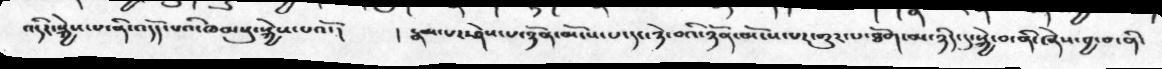འདིར་སྐྱེས་པ་ནི་འདོད་པའི་ཁམསུ་སྐྱེས་པའོ་།   །རྣམ་པར་ཤེས་པ་ཉོན་མོངས་པ་དང་ཉེ་བའི་ཉོན་མོངས་པར་གྱུར་པ་ཐོག་མ་ཉིད་དུ་སྐྱེ་བ་ནི་ཞེས་བྱ་བ་ནི་
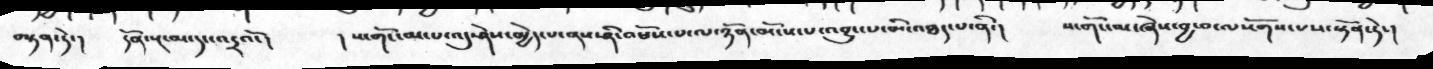བསྟན་ཏེ་།  དོན་སྔ་མ་དང་འདྲའོ་།     །ས་གོང་མ་པ་འདུ་ཤེས་མྱེད་པ་ནས་ཤི་འཕོས་པ་ལ་ཉོན་མོངས་པ་འབྱུང་པ་མི་འཐད་པ་ནི་།    ས་གོང་མ་ཞེས་བྱ་བ་ལསོགས་པས་སྟོན་ཏེ་།
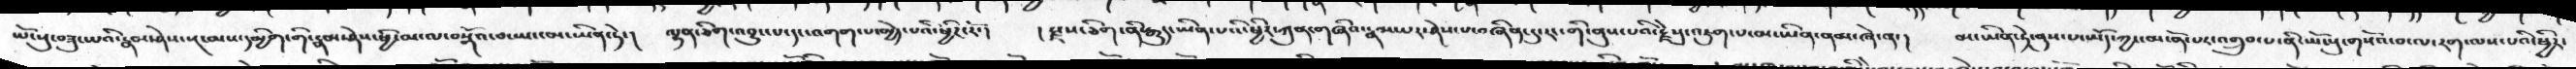ཡོངསུ་བཟུང་པའི་རྣམ་ཤེས་སྔ་མས་དམྱིག་གི་རྣམ་ཤེས་ཕྱི་མ་ལ་བསྒོའ་བ་ཡང་མ་ཡིན་ཏེ་།  ལྷན་ཅིག་འབྱུང་པ་དང་འགག་པ་མྱེད་པའི་ཕྱིར་རོ་།  །རྫས་ཅིག་ནི་རྒྱུད་ཡིན་པའི་ཕྱིར་ཀུན་གཞིའ་རྣམ་པར་ཤེས་པ་བཞིན་དུ་རང་གི་ནུས་པའི་རྗེསུ་འཇུག་པ་མ་ཡིན་ནམ་ཞེ་ན་། མ་ཡིན་ཏེ་ནུས་པ་ཡོད་ཀྱང་མངོན་པར་འགྲུབ་པ་ནི་ཡོངསུ་གསོའ་བ་ལ་རག་ལས་པའི་ཕྱིར་
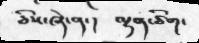ཅིས་ཞེ་ན་།  ལྷན་ཅིག་
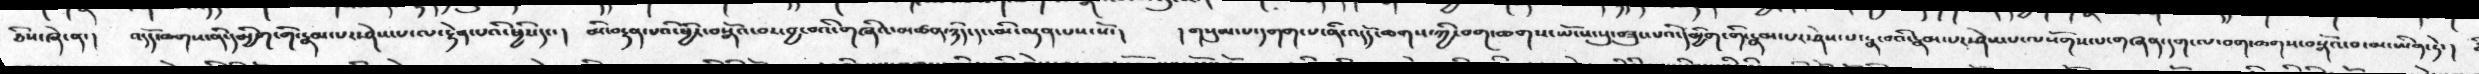ཅིས་ཞེ་ན་།  འདོད་ཆགས་ནི་དམྱིག་གི་རྣམ་པར་ཤེས་པ་ལ་རྟེན་པའི་ཕྱིར་དང་།  མི་བརྟན་པའི་ཕྱིར་བསྒོའ་བར་བའི་གཞིའ་མཚན་ཉིད་དང་མི་ལྡན་པས་སོ་ །   །གསུམ་པ་དགག་པ་ནི་འོདད་ཆགས་ཀྱི་བག་ཆགས་ཡོངས་སུ་བཟུང་པའི་དམྱིག་གི་རྣམ་པར་ཤེས་པ་རྣ་བའི་རྣམ་པར་ཤེས་པ་ལསོགས་པ་གཞན་དག་ལ་བག་ཆགས་བསྒོའ་བ་མ་ཡིན་ཏེ་།
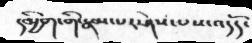དམྱིག་གི་རྣམ་པར་ཤེས་པས་འདོད་
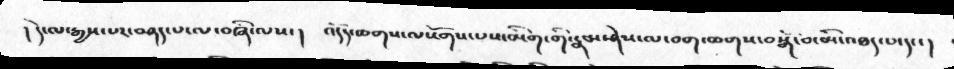། དེ་ལ་རྒྱས་པར་བཤད་པ་ལ་བཞི་ལས་།  འདོད་ཆགས་ལསོགས་པས་མིག་གི་རྣམ་ཤེས་ལ་བག་ཆགས་བསྒོ་བ་མི་འཐད་པ་དང་།
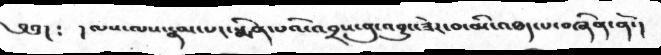༄༅།  ༴  །ལས་ལས་རྣམ་པར་སྨིན་པའི་འབྲས་བུ་འབྱུང་ཟེར་བ་མི་འཐད་པ་བཞིན་ནོ་།
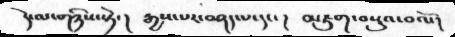དེ་ལ་གཉིས་ཏེ་།  རྒྱས་པར་བཤད་པ་དང་།  མཇུག་བསྡུའ་བའོ་།
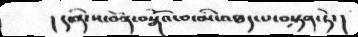།  ད་ནི་ས་བོན་བསྒོའ་བ་མི་འཐད་པ་བསྟན་ཏེ་།
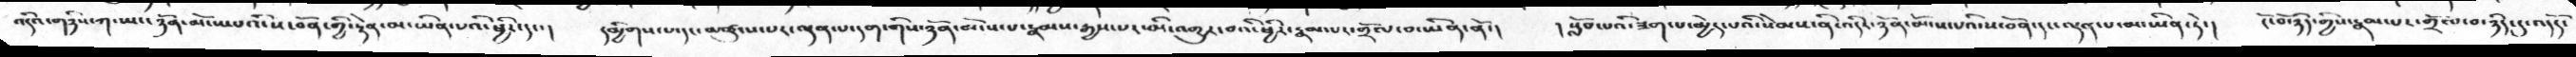འདིའ་གཉིས་ཀ་ཡང་ཉོན་མོངས་པའི་ས་བོན་གྱི་རྟེན་མ་ཡིན་པའི་ཕྱིར་དང་།  དམྱིགས་པདང་མཚུངས་པར་ལྡན་པ་དག་གིས་ཉོན་མོངས་་པ་རྣམས་རྒྱས་པར་མི་འགྱུར་བའི་ཕྱིར་རྣམ་པར་གྲོལ་བ་ཡིན་ནོ་།    །སློབ་པའི་ཟད་པ་མྱེད་པའི་སེམས་ནི་འདིར་ཉོན་མོངས་པའི་ས་བོན་དང་ལྡན་པ་མ་ཡིན་ཏེ་།  ངོ་བོ་ཉིད་གྱིས་རྣམ་པར་གྲོལ་བ་ཉིད་དུ་འདོད་
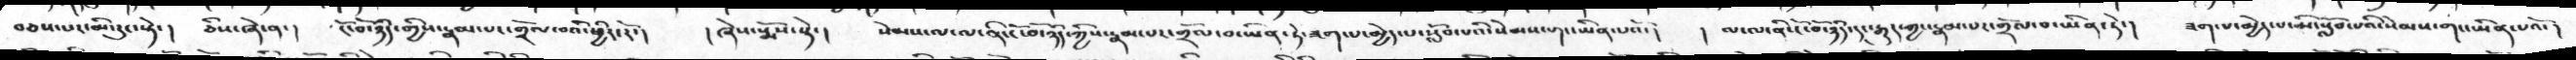བཅས་པར་མི་རུང་སྟེ་།  ཅིས་ཞེ་ན་།  ངོ་བ་ཉིད་གྱིས་རྣམ་པར་གྲོལ་བའི་ཕྱིར་རོ་།  །ཞེས་སྨོས་སྟེ་།  སེམས་ལ་ལ་ནི་ངོ་བོ་ཉིད་ཀྱིས་རྣམ་པར་གྲོལ་བ་ཡིན་ཏེ་ཟག་པ་མྱེད་པ་སློབ་པའི་སེམས་གང་ཡིན་པའོ་།  །ལ་ལ་ནི་ངོ་བོ་ཉིད་དང་རྒྱུད་ཀྱང་རྣམ་པར་གྲོལ་བ་ཡིན་ཏེ་།  ཟག་པ་མྱེད་པ་མི་སློབ་པའི་སེམས་གང་ཡིན་པའོ་།
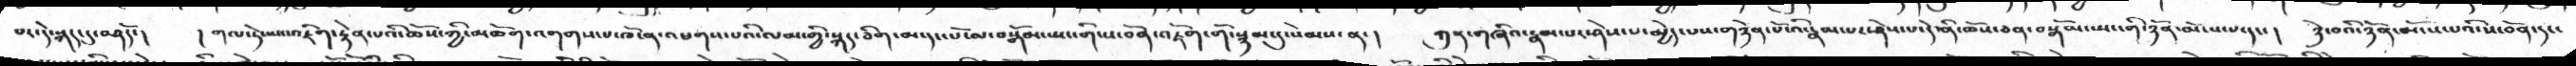པར་དེ་སྐད་དུ་བཤདོ་།  །གལ་ཏེ་ཡང་འཇིག་རྟེན་པའི་ཆོས་ཀྱི་མཆོག་འགགས་པ་ཁོ་ན་འཕགས་པའི་ལམ་གྱི་སྐད་ཅིག་མ་དང་པོ་ལ་བསྒོམ་སྤང་གི་ས་བོན་འཇོག་གི་སྙམ་དུ་སེམས་ན་།   ཀུན་གཞིའ་རྣམ་པར་ཤེས་པ་མྱེད་པས་གཉེན་པོ་འི་རྣམ་པར་ཤེས་པ་དེ་ནི་ཆོས་ཅན་བསྒོམ་སྤང་གི་ཉོན་མོངས་པ་དང་།  ཉེ་བའི་ཉོན་མོངས་པའི་ས་བོན་དང་
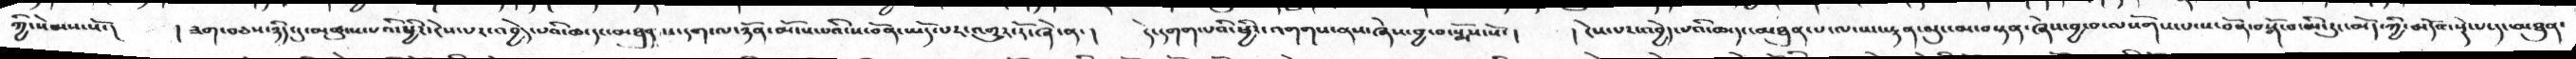ཀྱི་སེམས་སོ་།  །ཟག་བཅས་ཉིད་དུ་མཚུངས་པའི་ཕྱིར་ངེས་པར་འབྱེད་པའི་ཆ་དང་མཐུན་པ་དག་ལ་ཉོན་མོངས་པའི་ས་བོན་ཡོད་པར་འགྱུར་རོ་ཞེ་ན་།  དེ་དགག་པའི་ཕྱིར་འགགས་ནས་ཞེས་བྱ་བ་སྨོས་སོ་།  །ངེས་པར་འབྱེད་པའི་ཆ་དང་མཐུན་པ་ལ་ཡང་རྟན་ལུང་མ་བསྟན་ཞེས་བྱ་བ་ལསོགས་པ་ས་བོན་བསྒོ་བ་མི་རུང་མོད་ཀྱི་མདོའ་སྡེ་པ་དང་མཐུན་
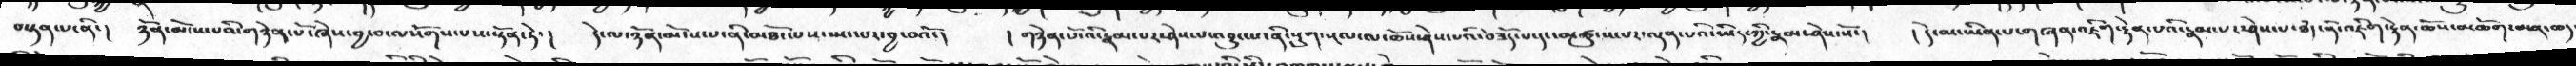བསྟན་པ་ནི་།  ཉོན་མོངས་པའི་གཉེན་པོ་ཞེས་བྱ་ལསོགས་པས་སྟོན་ཏེ་།   དེ་ལ་ཉོན་མོངས་པ་ནི་མཐོང་པས་སྤང་པར་བྱ་བའོ་།   ། གཉེན་པོ་འི་རྣམ་པར་ཤེས་པ་འབྱུང་པ་ནི་སྡུག་སྔལ་ལ་ཆོས་ཤེས་པའི་བཟོད་པ་དང་མཚུངས་པར་ལྡན་པའི་ཡིད་ཀྱི་རྣམ་ཤེས་སོ་།   །དེ་མ་ཡིན་པ་གཞན་འཇིག་རྟེན་པའི་རྣམ་པར་ཤེས་པ་ཐདཾ་ནི་འཇིག་རྟེན་ཆོས་མཆོག་མན་ཆད་
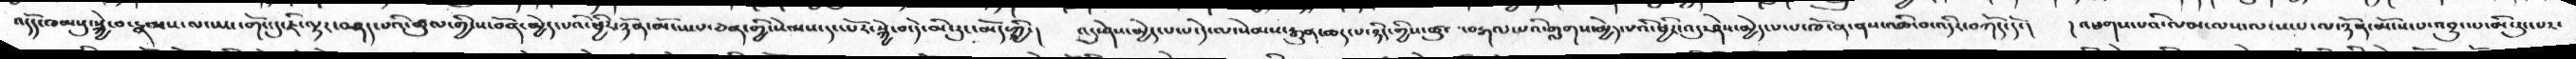འདོད་ཁམསུ་སྐྱེ་བ་རྣམས་ལ་ཡང་གོང་དུ་ཇི་ལྟར་བཤད་པའི་ཚུལ་གྱི་ས་བོན་མྱེད་པའི་ཕྱིར་ཉོན་མོངས་པ་ཅན་གྱི་སེམས་དང་པོར་སྐྱེ་བ་དེ་མི་རུང་མོད་ཀྱི་།  འདུ་ཤེས་མྱེད་པ་པ་དེ་ལ་སེམས་རྒྱུན་ཆད་པ་ཉིད་གྱིས་ཚུལ་བརྒལ་པའི་གླགས་མྱེད་པའི་ཕྱིར་འདུ་ཤེས་མྱེད་པ་པ་ཁོ་ན་ནས་འཆི་བ་འདིར་བཀོད་དོ་།   ། འཕགས་པའི་ལམ་ལས་ལངས་པ་ལ་ཉོན་མོངས་པ་འབྱུང་པ་མི་རུང་པར་
